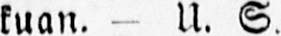kuan. — U. S.
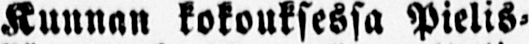Kunnan kokouksessa Pielis-
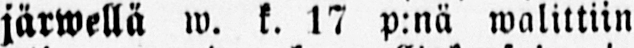järwellä w. k. 17 p:nä waliltiin
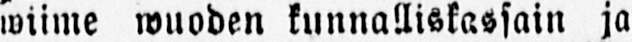wiime wuoden kunnalliskassain ja
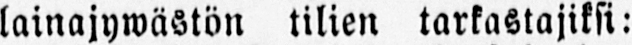lainajywästön tilien tarkastajiksi:
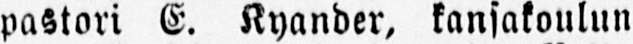pastori E. Kyander, kansakoulun
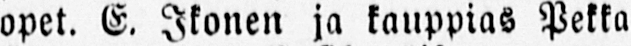opet. E. Ikonen ja kauppias Pekka
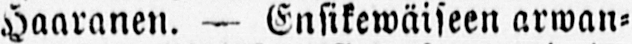Haaronen. — Ensikewäiseen arwan-
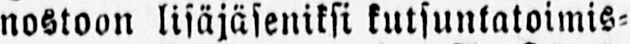nostoon lisäjäseniksi kutsuntatoimis-
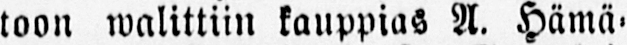toon walittiin kauppias A. Hämä-
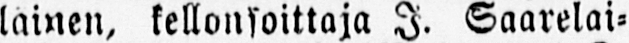läinen, kellonsoittaja I. Saarelai-
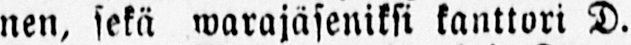nen, sekä warajäseniksi kanttori D.
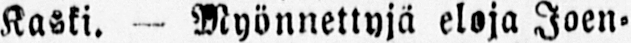Kaski. — Myönnettyjä eloja Joen-
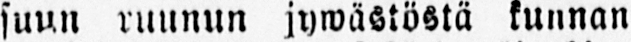suun ruunun jywästöstä kunnan
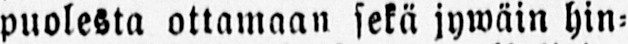puolesta ottamaan sekä jywäin hin-
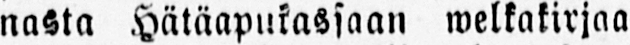nasta Hätäapukassaan welkakirjaa
